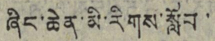ཞིང་ཆེན་མི་རིགས་སློབ་
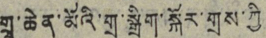གྲྭ་ཆེན་མོའི་གྲ་སྒྲིག་སྐོར་གྲས་ཀྱི
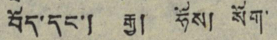བོད་དང་། རྒྱ། ཧོས། སོག་
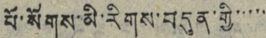པོ་སོགས་མི་རིགས་བདུན་གྱི་་་་་
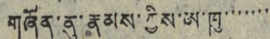གཞོན་ནུ་རྣམས་ཀྱིས་ཨ་ཁུ་་་་་་་
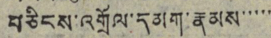བཅིངས་འགྲོལ་དམག་རྣམས་་་་་
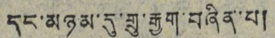དང་མཉམ་དུ་གྲུ་རྒྱག་བཞིན་པ།
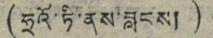(ཧྲའོ་ཏི་ནས་བླངས།)
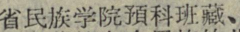省民族学院預科班藏、
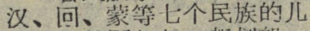汉、回、蒙等七个民族的儿
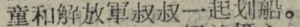童和解放軍叔叔一起划船。
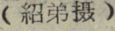（紹弟摄）
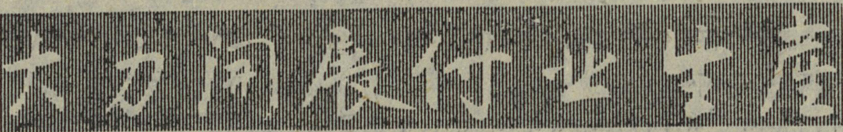大力𫔭展付业生產
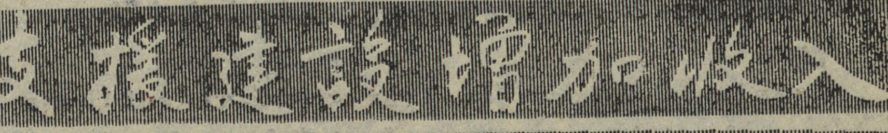支援建設增加收入
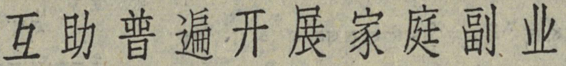互助普遍开展家庭副业
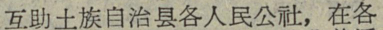互助土族自治县各人民公社，在各
